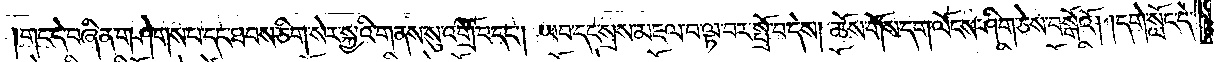གང་དེ་བཞིན་གཤེགས་པ་དང་ཐབས་ཅིག་སེར་སྐྱའི་གནས་སུ་འགྲོ་བ་དང༌། ཡབ་དང་སྲས་མཇལ་བ་ལྟ་བར་སྤྲོ་བ་དེས། ཆོས་གོས་དག་ལོངས་ཤིག་ཅེས་བསྒོའོ། །དགེ་སློང་དེ་
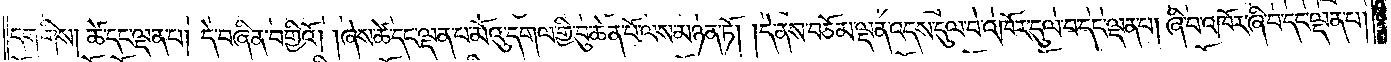དག་གིས། ཚེ་དང་ལྡན་པ། དེ་བཞིན་བགྱིའོ། །ཞེས་ཚེ་དང་ལྡན་པ་མོའུ་དགལ་གྱི་བུ་ཆེན་པོ་ལས་མཉན་ཏོ། །དེ་ནས་བཅོམ་ལྡན་འདས་དུལ་བ་འཁོར་དུལ་བ་དང་ལྡན་པ། ཞི་བ་འཁོར་ཞི་བ་དང་ལྡན་པ།
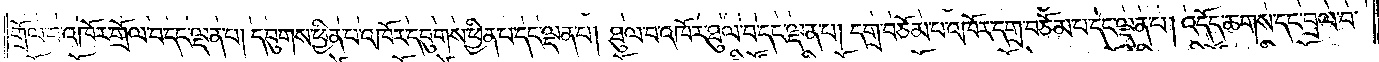གྲོལ་བ་འཁོར་གྲོལ་བ་དང་ལྡན་པ། དབུགས་ཕྱིན་པ་འཁོར་དབུགས་ཕྱིན་པ་དང་ལྡན་པ། ཐུལ་བ་འཁོར་ཐུལ་བ་དང་ལྡན་པ། དགྲ་བཅོམ་པ་འཁོར་དགྲ་བཅོམ་པ་དང་ལྡན་པ། འདོད་ཆགས་དང་བྲལ་བ་
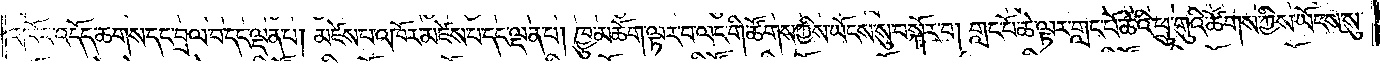འཁོར་འདོད་ཆགས་དང་བྲལ་བ་དང་ལྡན་པ། མཛེས་པ་འཁོར་མཛེས་པ་དང་ལྡན་པ། ཁྱུ་མཆོག་ལྟར་བ་ལང་གི་ཚོགས་ཀྱིས་ཡོངས་སུ་བསྐོར་བ། གླང་པོ་ཆེ་ལྟར་གླང་པོ་ཆེའི་ཕྲུ་གུའི་ཚོགས་ཀྱིས་ཡོངས་སུ་
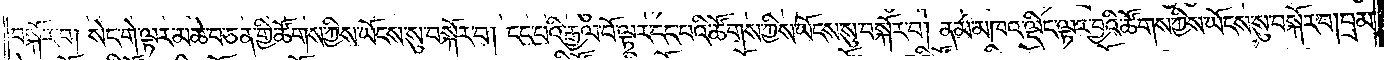བསྐོར་བ། སེང་གེ་ལྟར་མཆེ་བ་ཅན་གྱི་ཚོགས་ཀྱིས་ཡོངས་སུ་བསྐོར་བ། ངང་པའི་རྒྱལ་པོ་ལྟར་ངང་པའི་ཚོགས་ཀྱིས་ཡོངས་སུ་བསྐོར་བ། ནམ་མཁའ་ལྡིང་ལྟར་བྱའི་ཚོགས་ཀྱིས་ཡོངས་སུ་བསྐོར་བ།བྲམ་
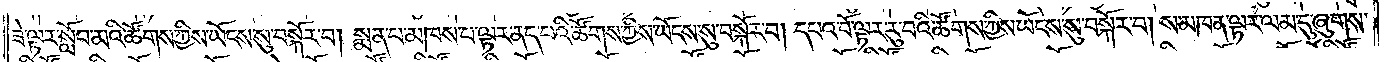ཟེ་ལྟར་སློབ་མའི་ཚོགས་ཀྱིས་ཡོངས་སུ་བསྐོར་བ། སྨན་པ་མཁས་པ་ལྟར་ནད་པའི་ཚོགས་ཀྱིས་ཡོངས་སུ་བསྐོར་བ། དཔའ་བོ་ལྟར་རུ་བའི་ཚོགས་ཀྱིས་ཡོངས་སུ་བསྐོར་བ། ས་མཁན་ལྟར་ལམ་དུ་ཞུགས་
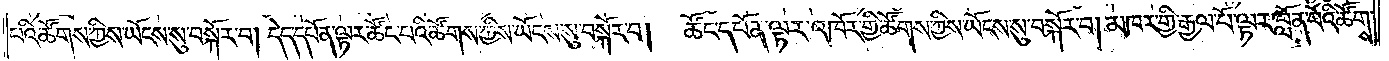པའི་ཚོགས་ཀྱིས་ཡོངས་སུ་བསྐོར་བ། དེད་དཔོན་ལྟར་ཚོང་པའི་ཚོགས་ཀྱིས་ཡོངས་སུ་བསྐོར་བ། ཚོང་དཔོན་ལྟར་འཁོར་གྱི་ཚོགས་ཀྱིས་ཡོངས་སུ་བསྐོར་བ། མཁར་གྱི་རྒྱལ་པོ་ལྟར་བློན་པོའི་ཚོགས་
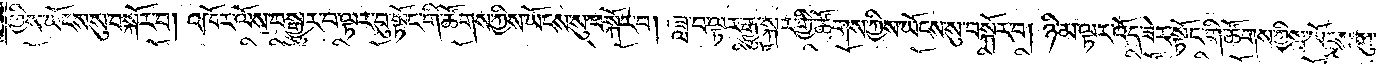ཀྱིས་ཡོངས་སུ་བསྐོར་བ། འཁོར་ལོས་བསྒྱུར་བ་ལྟར་བུ་སྟོང་གི་ཚོགས་ཀྱིས་ཡོངས་སུ་བསྐོར་བ། ཟླ་བ་ལྟར་རྒྱུ་སྐར་གྱི་ཚོགས་ཀྱིས་ཡོངས་སུ་བསྐོར་བ། ཉི་མ་ལྟར་འོད་ཟེར་སྟོང་གི་ཚོགས་ཀྱིས་ཡོངས་སུ་
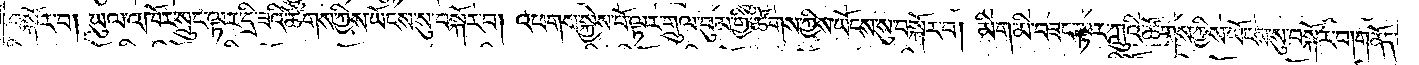བསྐོར་བ། ཡུལ་འཁོར་སྲུང་ལྟར་དྲི་ཟའི་ཚོགས་ཀྱིས་ཡོངས་སུ་བསྐོར་བ། འཕགས་སྐྱེས་པོ་ལྟར་གྲུལ་བུམ་གྱི་ཚོགས་ཀྱིས་ཡོངས་སུ་བསྐོར་བ། མིག་མེ་བཟང་ལྟར་ཀླུའི་ཚོགས་ཀྱིས་ཡོངས་སུ་བསྐོར་བ། གནོད་
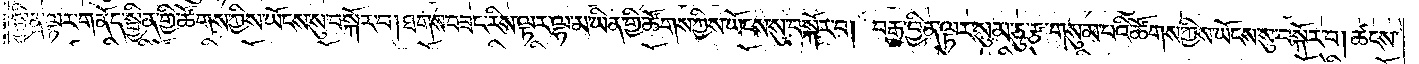སྦྱིན་ལྟར་གནོད་སྦྱིན་གྱི་ཚོགས་ཀྱིས་ཡོངས་སུ་བསྐོར་བ། ཐགས་བཟང་རིས་ལྟར་ལྷ་མ་ཡིན་གྱི་ཚོགས་ཀྱིས་ཡོངས་སུ་བསྐོར་བ། བརྒྱ་བྱིན་ལྟར་སུམ་ཅུ་རྩ་གསུམ་པའི་ཚོགས་ཀྱིས་ཡོངས་སུ་བསྐོར་བ། ཚངས་
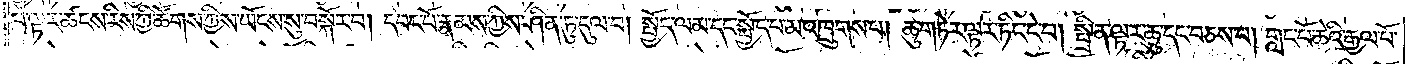པ་ལྟར་ཚངས་རིས་ཀྱི་ཚོགས་ཀྱིས་ཡོངས་སུ་བསྐོར་བ། དབང་པོ་རྣམས་ཀྱིས་ཤིན་ཏུ་དུལ་བ། སྤྱོད་ལམ་དང་སྤྱོད་པ་མ་འཁྲུགས་པ། ཆུ་གཏེར་ལྟར་ཏིང་ངེ་བ། སྤྲིན་ལྟར་ཆུ་དང་བཅས་པ། གླང་པོ་ཆེའི་རྒྱལ་པོ་
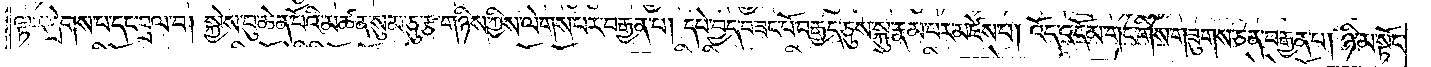ལྟར་དྲེགས་པ་དང་བྲལ་བ། སྐྱེས་བུ་ཆེན་པོའི་མཚན་སུམ་ཅུ་རྩ་གཉིས་ཀྱིས་ལེགས་པར་བརྒྱན་པ། དཔེ་བྱད་བཟང་པོ་བརྒྱད་ཅུས་སྐུ་རྣམ་པར་མཛེས་པ། འོད་འདོམ་གང་གིས་གཟུགས་ཅན་བརྒྱན་པ། ཉི་མ་སྟོང་
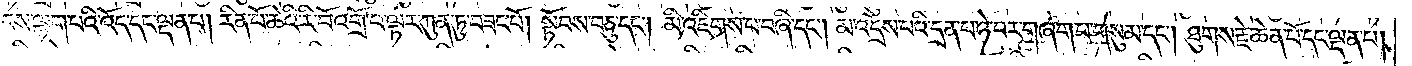པས་ལྷག་པའི་འོད་དང་ལྡན་པ། རིན་པོ་ཆེའི་རི་བོ་འགྲོ་བ་ལྟར་ཀུན་ཏུ་བཟང་པོ། སྟོབས་བཅུ་དང༌། མི་འཇིགས་པ་བཞི་དང༌། མ་འདྲེས་པའི་དྲན་པ་ཉེ་བར་གཞག་པ་གསུམ་དང༌། ཐུགས་རྗེ་ཆེན་པོ་དང་ལྡན་པ།
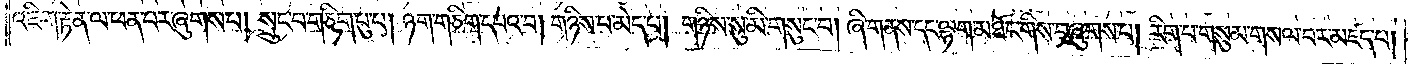འཇིག་རྟེན་ལ་ཕན་པར་ཞུགས་པ། སྲུང་བ་གཅིག་པུ་པ། ཉག་གཅིག་དཔའ་བ། གཉིས་པ་མེད་པ། གཉིས་སུ་མི་གསུང་བ། ཞི་གནས་དང་ལྷག་མཐོང་གིས་བཞུགས་པ། རིག་པ་གསུམ་གསལ་བར་མཛད་པ།
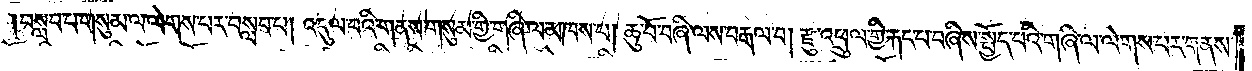བསླབ་པ་གསུམ་ལ་ལེགས་པར་བསླབ་པ། འདུལ་བའི་གནས་གསུམ་གྱི་གཞི་ལ་མཁས་པ། ཆུ་བོ་བཞི་ལས་བརྒལ་བ། རྫུ་འཕྲུལ་གྱི་རྐང་པ་བཞིས་སྤྱོད་པའི་གཞི་ལ་ལེགས་པར་གནས་
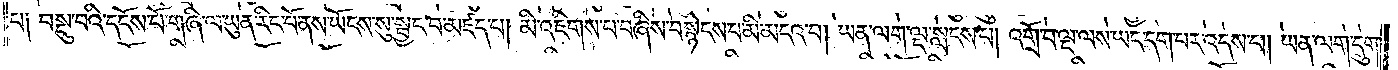པ། བསྡུ་བའི་དངོས་པོ་གཞི་ལ་ཡུན་རིང་པོ་ནས་ཡོངས་སུ་སྦྱང་བ་མཛད་པ། མི་འཇིགས་པ་བཞིས་བསྙེངས་པ་མི་མངའ་བ། ཡན་ལག་ལྔ་སླངས་པ། འགྲོ་བ་ལྔ་ལས་ཡང་དག་པར་འདས་པ། ཡན་ལག་དྲུག་
